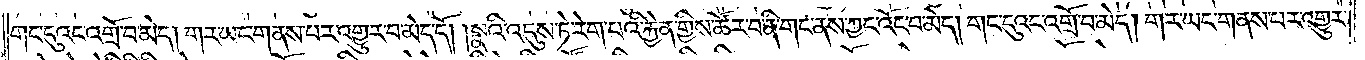གང་དུའང་འགྲོ་བ་མེད། གར་ཡང་གནས་པར་འགྱུར་བ་མེད་དོ། །སྣའི་འདུས་ཏེ་རེག་པའི་རྐྱེན་གྱིས་ཚོར་བ་ནི་གང་ནས་ཀྱང་འོང་བ་མེད། གང་དུའང་འགྲོ་བ་མེད། གར་ཡང་གནས་པར་འགྱུར་
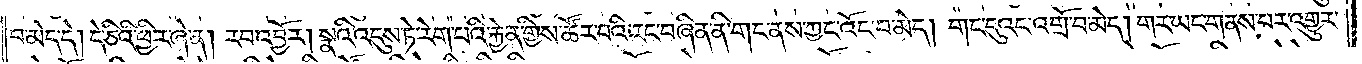བ་མེད་དེ། དེ་ཅིའི་ཕྱིར་ཞེ་ན། རབ་འབྱོར། སྣའི་འདུས་ཏེ་རེག་པའི་རྐྱེན་གྱིས་ཚོར་བའི་རང་བཞིན་ནི་གང་ནས་ཀྱང་འོང་བ་མེད། གང་དུའང་འགྲོ་བ་མེད། གར་ཡང་གནས་པར་འགྱུར་
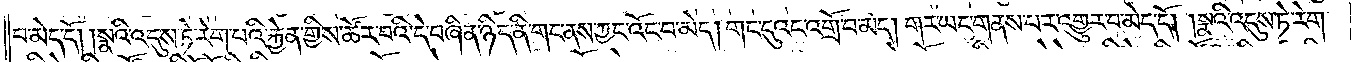བ་མེད་དོ། །སྣའི་འདུས་ཏེ་རེག་པའི་རྐྱེན་གྱིས་ཚོར་བའི་དེ་བཞིན་ཉིད་ནི་གང་ནས་ཀྱང་འོང་བ་མེད། གང་དུའང་འགྲོ་བ་མེད། གར་ཡང་གནས་པར་འགྱུར་བ་མེད་དོ། །སྣའི་འདུས་ཏེ་རེག་
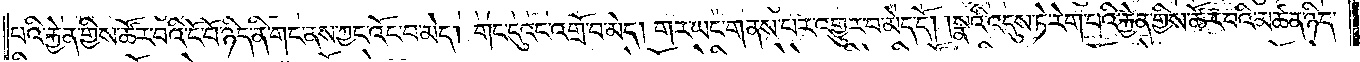པའི་རྐྱེན་གྱིས་ཚོར་བའི་ངོ་བོ་ཉིད་ནི་གང་ནས་ཀྱང་འོང་བ་མེད། གང་དུའང་འགྲོ་བ་མེད། གར་ཡང་གནས་པར་འགྱུར་བ་མེད་དོ། །སྣའི་འདུས་ཏེ་རེག་པའི་རྐྱེན་གྱིས་ཚོར་བའི་མཚན་ཉིད་
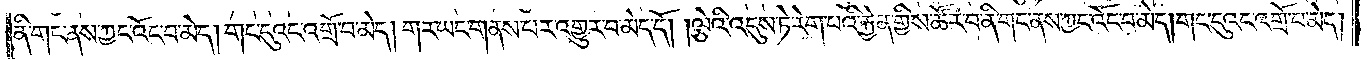ནི་གང་ནས་ཀྱང་འོང་བ་མེད། གང་དུའང་འགྲོ་བ་མེད། གར་ཡང་གནས་པར་འགྱུར་བ་མེད་དོ། །ལྕེའི་འདུས་ཏེ་རེག་པའི་རྐྱེན་གྱིས་ཚོར་བ་ནི་གང་ནས་ཀྱང་འོང་བ་མེད། གང་དུའང་འགྲོ་བ་མེད།
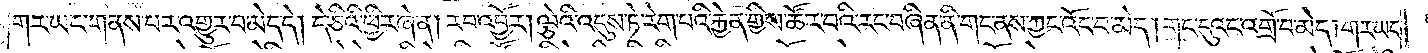གར་ཡང་གནས་པར་འགྱུར་བ་མེད་དེ། །དེ་ཅིའི་ཕྱིར་ཞེ་ན། རབ་འབྱོར། ལྕེའི་འདུས་ཏེ་རེག་པའི་རྐྱེན་གྱིས་ཚོར་བའི་རང་བཞིན་ནི་གང་ནས་ཀྱང་འོང་བ་མེད། གང་དུའང་འགྲོ་བ་མེད། གར་ཡང་
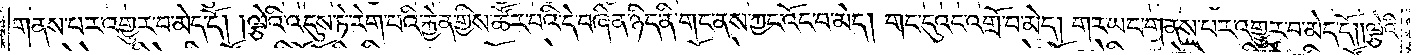གནས་པར་འགྱུར་བ་མེད་དོ། །ལྕེའི་འདུས་ཏེ་རེག་པའི་རྐྱེན་གྱིས་ཚོར་བའི་དེ་བཞིན་ཉིད་ནི་གང་ནས་ཀྱང་འོང་བ་མེད། གང་དུའང་འགྲོ་བ་མེད། གར་ཡང་གནས་པར་འགྱུར་བ་མེད་དོ། །ལྕེའི་
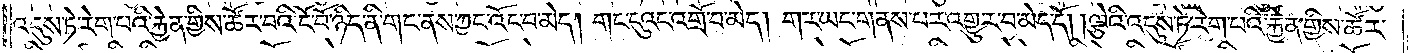འདུས་ཏེ་རེག་པའི་རྐྱེན་གྱིས་ཚོར་བའི་ངོ་བོ་ཉིད་ནི་གང་ནས་ཀྱང་འོང་བ་མེད། གང་དུའང་འགྲོ་བ་མེད། གར་ཡང་གནས་པར་འགྱུར་བ་མེད་དོ། །ལྕེའི་འདུས་ཏེ་རེག་པའི་རྐྱེན་གྱིས་ཚོར་
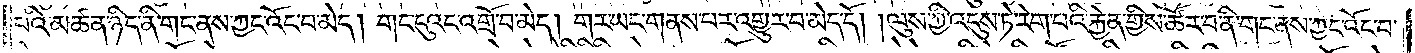བའི་མཚན་ཉིད་ནི་གང་ནས་ཀྱང་འོང་བ་མེད། གང་དུའང་འགྲོ་བ་མེད། གར་ཡང་གནས་པར་འགྱུར་བ་མེད་དོ། །ལུས་ཀྱི་འདུས་ཏེ་རེག་པའི་རྐྱེན་གྱིས་ཚོར་བ་ནི་གང་ནས་ཀྱང་འོང་བ་
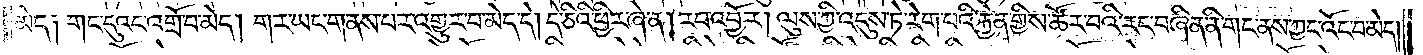མེད། གང་དུའང་འགྲོ་བ་མེད། གར་ཡང་གནས་པར་འགྱུར་བ་མེད་དེ། དེ་ཅིའི་ཕྱིར་ཞེ་ན། རབ་འབྱོར། ལུས་ཀྱི་འདུས་ཏེ་རེག་པའི་རྐྱེན་གྱིས་ཚོར་བའི་རང་བཞིན་ནི་གང་ནས་ཀྱང་འོང་བ་མེད།
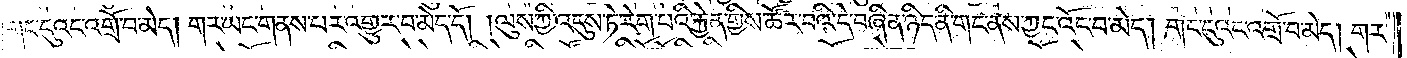གང་དུའང་འགྲོ་བ་མེད། གར་ཡང་གནས་པར་འགྱུར་བ་མེད་དོ། །ལུས་ཀྱི་འདུས་ཏེ་རེག་པའི་རྐྱེན་གྱིས་ཚོར་བའི་དེ་བཞིན་ཉིད་ནི་གང་ནས་ཀྱང་འོང་བ་མེད། གང་དུའང་འགྲོ་བ་མེད། གར་
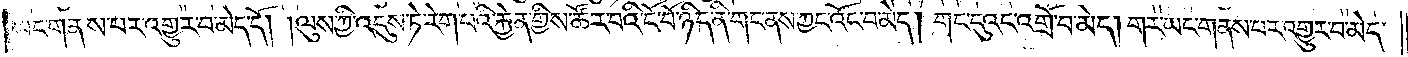ཡང་གནས་པར་འགྱུར་བ་མེད་དོ། །ལུས་ཀྱི་འདུས་ཏེ་རེག་པའི་རྐྱེན་གྱིས་ཚོར་བའི་ངོ་བོ་ཉིད་ནི་གང་ནས་ཀྱང་འོང་བ་མེད། གང་དུའང་འགྲོ་བ་མེད། གར་ཡང་གནས་པར་འགྱུར་བ་མེད་
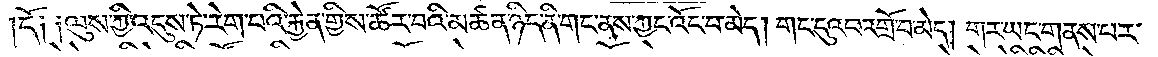དོ། །ལུས་ཀྱི་འདུས་ཏེ་རེག་པའི་རྐྱེན་གྱིས་ཚོར་བའི་མཚན་ཉིད་ནི་གང་ནས་ཀྱང་འོང་བ་མེད། གང་དུའང་འགྲོ་བ་མེད། གར་ཡང་གནས་པར་
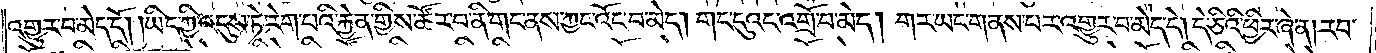འགྱུར་བ་མེད་དོ། །ཡིད་ཀྱི་འདུས་ཏེ་རེག་པའི་རྐྱེན་གྱིས་ཚོར་བ་ནི་གང་ནས་ཀྱང་འོང་བ་མེད། གང་དུའང་འགྲོ་བ་མེད། གར་ཡང་གནས་པར་འགྱུར་བ་མེད་དོ། དེ་ཅིའི་ཕྱིར་ཞེ་ན། རབ་
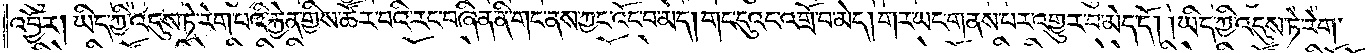འབྱོར། ཡིད་ཀྱི་འདུས་ཏེ་རེག་པའི་རྐྱེན་གྱིས་ཚོར་བའི་རང་བཞིན་ནི་གང་ནས་ཀྱང་འོང་བ་མེད། གང་དུའང་འགྲོ་བ་མེད། གར་ཡང་གནས་པར་འགྱུར་བ་མེད་དོ། །ཡིད་ཀྱི་འདུས་ཏེ་རེག་
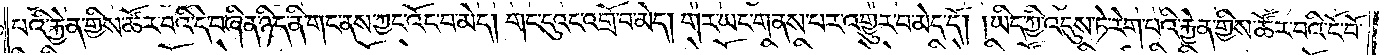པའི་རྐྱེན་གྱིས་ཚོར་བའི་དེ་བཞིན་ཉིད་ནི་གང་ནས་ཀྱང་འོང་བ་མེད། གང་དུའང་འགྲོ་བ་མེད། གར་ཡང་གནས་པར་འགྱུར་བ་མེད་དོ། །ཡིད་ཀྱི་འདུས་ཏེ་རེག་པའི་རྐྱེན་གྱིས་ཚོར་བའི་ངོ་བོ་
